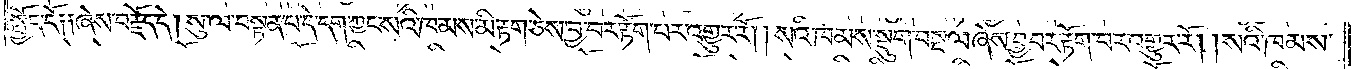སྤྱོད་དོ༑ ༑ཞེས་བརྗོད་དེ། སུ་ལ་བསྟན་པ་དེ་དག་ཀྱང་སའི་ཁམས་མི་རྟག་ཅེས་བྱ་བར་རྟོག་པར་འགྱུར་རོ། །སའི་ཁམས་སྡུག་བསྔལ་ཞེས་བྱ་བར་རྟོག་པར་འགྱུར་རོ། །སའི་ཁམས་
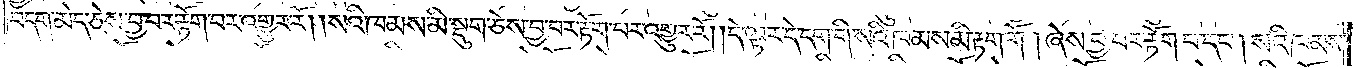བདག་མེད་ཅེས་བྱ་བར་རྟོག་པར་འགྱུར་རོ། །སའི་ཁམས་མི་སྡུག་ཅེས་བྱ་བར་རྟོག་པར་འགྱུར་རོ། །དེ་ལྟར་དེ་དག་གི་སའི་ཁམས་མི་རྟག་གོ། ཞེས་བྱ་བར་རྟོག་པ་དང༌། སའི་ཁམས་
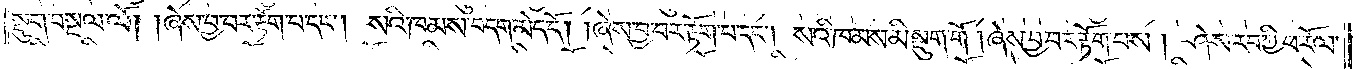སྡུག་བསྔལ་ལོ། །ཞེས་བྱ་བར་རྟོག་པ་དང༌། སའི་ཁམས་བདག་མེད་དོ། །ཞེས་བྱ་བར་རྟོག་པ་དང༌། སའི་ཁམས་མི་སྡུག་གོ། ཞེས་བྱ་བར་རྟོག་པས། ཤེས་རབ་ཀྱི་ཕ་རོལ་
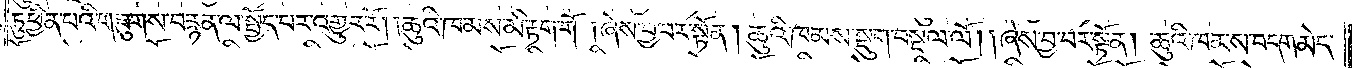ཏུ་ཕྱིན་པའི་གཟུགས་བརྙན་ལ་སྤྱོད་པར་འགྱུར་རོ། །ཆུའི་ཁམས་མི་རྟག་གོ། ཞེས་བྱ་བར་སྟོན། ཆུའི་ཁམས་སྡུག་བསྔལ་ལོ། །ཞེས་བྱ་བར་སྟོན། ཆུའི་ཁམས་བདག་མེད་
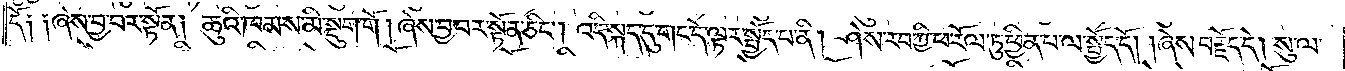དོ༑ ༑ཞེས་བྱ་བར་སྟོན། ཆུའི་ཁམས་མི་སྡུག་གོ། ཞེས་བྱ་བར་སྟོན་ཅིང༌། འདི་སྐད་དུ་གང་དེ་ལྟར་སྤྱོད་པ་ནི། ཤེས་རབ་ཀྱི་ཕ་རོལ་ཏུ་ཕྱིན་པ་ལ་སྤྱོད་དོ། །ཞེས་བརྗོད་དེ། སུ་ལ་
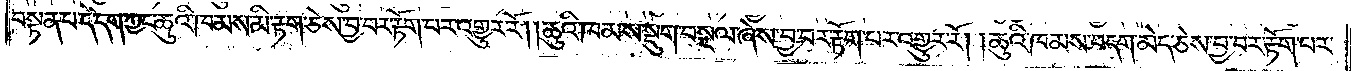བསྟན་པ་དེ་དག་ཀྱང་ཆུའི་ཁམས་མི་རྟག་ཅེས་བྱ་བར་རྟོག་པར་འགྱུར་རོ། །ཆུའི་ཁམས་སྡུག་བསྔལ་ཞེས་བྱ་བར་རྟོག་པར་འགྱུར་རོ། །ཆུའི་ཁམས་བདག་མེད་ཅེས་བྱ་བར་རྟོག་པར་
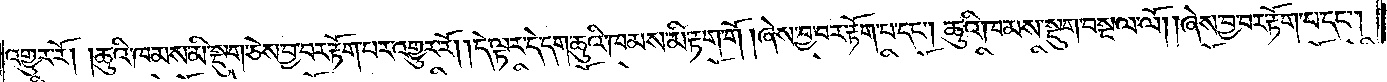འགྱུར་རོ། །ཆུའི་ཁམས་མི་སྡུག་ཅེས་བྱ་བར་རྟོག་པར་འགྱུར་རོ། །དེ་ལྟར་དེ་དག་ཆུའི་ཁམས་མི་རྟག་གོ། ཞེས་བྱ་བར་རྟོག་པ་དང༌། ཆུའི་ཁམས་སྡུག་བསྔལ་ལོ། །ཞེས་བྱ་བར་རྟོག་པ་དང༌།
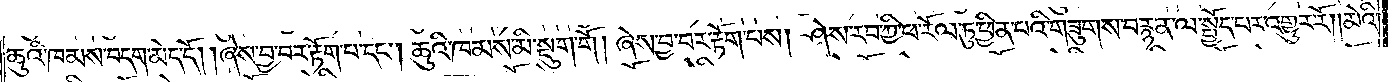ཆུའི་ཁམས་བདག་མེད་དོ། །ཞེས་བྱ་བར་རྟོག་པ་དང༌། ཆུའི་ཁམས་མི་སྡུག་གོ། ཞེས་བྱ་བར་རྟོག་པས། ཤེས་རབ་ཀྱི་ཕ་རོལ་ཏུ་ཕྱིན་པའི་གཟུགས་བརྙན་ལ་སྤྱོད་པར་འགྱུར་རོ། །མེའི་
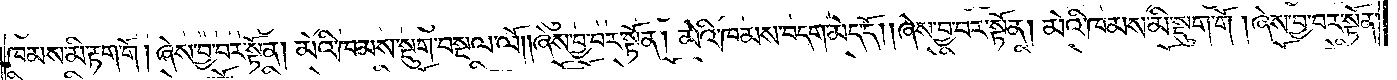ཁམས་མི་རྟག་གོ། ཞེས་བྱ་བར་སྟོན། མེའི་ཁམས་སྡུག་བསྔལ་ལོ། །ཞེས་བྱ་བར་སྟོན། མེའི་ཁམས་བདག་མེད་དོ། །ཞེས་བྱ་བར་སྟོན། མེའི་ཁམས་མི་སྡུག་གོ། ཞེས་བྱ་བར་སྟོན་
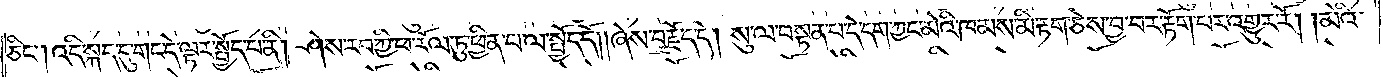ཅིང༌། འདི་སྐད་དུ་གང་དེ་ལྟར་སྤྱོད་པ་ནི། ཤེས་རབ་ཀྱི་ཕ་རོལ་ཏུ་ཕྱིན་པ་ལ་སྤྱོད་དོ། །ཞེས་བརྗོད་དེ། སུ་ལ་བསྟན་པ་དེ་དག་ཀྱང་མེའི་ཁམས་མི་རྟག་ཅེས་བྱ་བར་རྟོག་པར་འགྱུར་རོ། །མེའི་
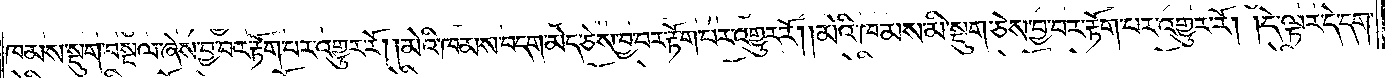ཁམས་སྡུག་བསྔལ་ཞེས་བྱ་བར་རྟོག་པར་འགྱུར་རོ། །མེའི་ཁམས་བདག་མེད་ཅེས་བྱ་བར་རྟོག་པར་འགྱུར་རོ། །མེའི་ཁམས་མི་སྡུག་ཅེས་བྱ་བར་རྟོག་པར་འགྱུར་རོ། །དེ་ལྟར་དེ་དག་
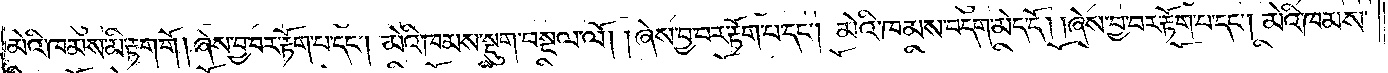མེའི་ཁམས་མི་རྟག་གོ། ཞེས་བྱ་བར་རྟོག་པ་དང༌། མེའི་ཁམས་སྡུག་བསྔལ་ལོ། །ཞེས་བྱ་བར་རྟོག་པ་དང༌། མེའི་ཁམས་བདག་མེད་དོ། །ཞེས་བྱ་བར་རྟོག་པ་དང༌། མེའི་ཁམས་
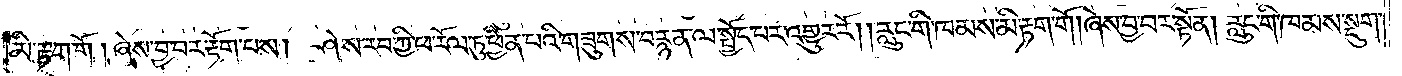མི་སྡུག་གོ། ཞེས་བྱ་བར་རྟོག་པས། ཤེས་རབ་ཀྱི་ཕ་རོལ་ཏུ་ཕྱིན་པའི་གཟུགས་བརྙན་ལ་སྤྱོད་པར་འགྱུར་རོ། །རླུང་གི་ཁམས་མི་རྟག་གོ། ཞེས་བྱ་བར་སྟོན། རླུང་གི་ཁམས་སྡུག་
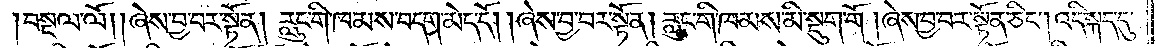བསྔལ་ལོ། །ཞེས་བྱ་བར་སྟོན། རླུང་གི་ཁམས་བདག་མེད་དོ། །ཞེས་བྱ་བར་སྟོན། རླུང་གི་ཁམས་མི་སྡུག་གོ། ཞེས་བྱ་བར་སྟོན་ཅིང༌། འདི་སྐད་དུ་
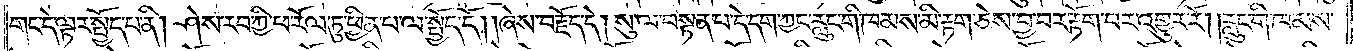གང་དེ་ལྟར་སྤྱོད་པ་ནི། ཤེས་རབ་ཀྱི་ཕ་རོལ་ཏུ་ཕྱིན་པ་ལ་སྤྱོད་དོ། །ཞེས་བརྗོད་དེ། སུ་ལ་བསྟན་པ་དེ་དག་ཀྱང་རླུང་གི་ཁམས་མི་རྟག་ཅེས་བྱ་བར་རྟོག་པར་འགྱུར་རོ། །རླུང་གི་ཁམས་
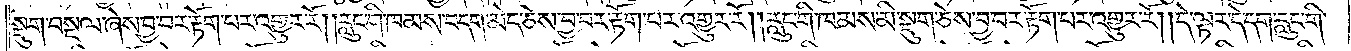སྡུག་བསྔལ་ཞེས་བྱ་བར་རྟོག་པར་འགྱུར་རོ། །རླུང་གི་ཁམས་བདག་མེད་ཅེས་བྱ་བར་རྟོག་པར་འགྱུར་རོ། །རླུང་གི་ཁམས་མི་སྡུག་ཅེས་བྱ་བར་རྟོག་པར་འགྱུར་རོ། །དེ་ལྟར་དེ་དག་རླུང་གི་
